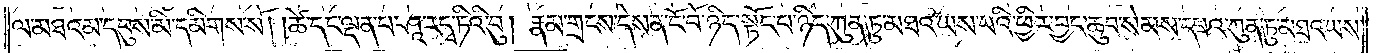ལ་མཐའམ་དབུས་མི་དམིགས་སོ། །ཚེ་དང་ལྡན་པ་ཤཱ་ར་དྭ་ཏིའི་བུ་རྣམ་གྲངས་དེས་ན་ངོ་བོ་ཉིད་སྟོང་པ་ཉིད་ཀུན་ཏུ་མཐའ་ཡས་པའི་ཕྱིར་བྱང་ཆུབ་སེམས་དཔའ་ཀུན་ཏུ་མཐའ་ཡས་
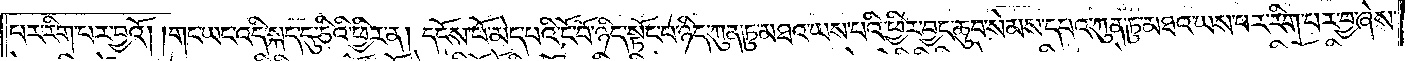པར་རིག་པར་བྱའོ། །གང་ཡང་འདི་སྐད་དུ་ཅིའི་ཕྱིར་ན། དངོས་པོ་མེད་པའི་ངོ་བོ་ཉིད་སྟོང་པ་ཉིད་ཀུན་ཏུ་མཐའ་ཡས་པའི་ཕྱིར་བྱང་ཆུབ་སེམས་དཔའ་ཀུན་ཏུ་མཐའ་ཡས་པར་རིག་པར་བྱ་ཞེས་
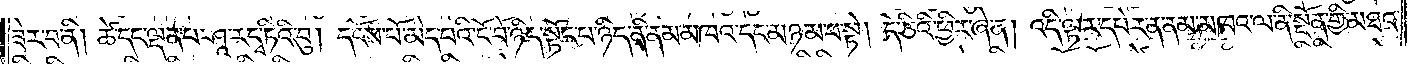ཟེར་བ་ནི། ཚེ་དང་ལྡན་པ་ཤཱ་ར་དྭ་ཏིའི་བུ། དངོས་པོ་མེད་པའི་ངོ་བོ་ཉིད་སྟོང་པ་ཉིད་ནི་ནམ་མཁའ་དང་མཉམ་པ་སྟེ། དེ་ཅིའི་ཕྱིར་ཞེ་ན། འདི་ལྟར་དཔེར་ན་ནམ་མཁའ་ལ་ནི་སྔོན་གྱི་མཐའ་
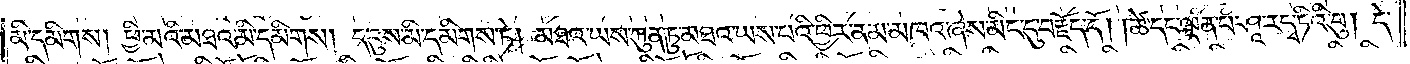མི་དམིགས། ཕྱི་མའི་མཐའ་མི་དམིགས། དབུས་མི་དམིགས་ཏེ། མཐའ་ཡས་ཀུན་ཏུ་མཐའ་ཡས་པའི་ཕྱིར་ནམ་མཁའ་ཞེས་མིང་དུ་བརྗོད་དོ། །ཚེ་དང་ལྡན་པ་ཤཱ་ར་དྭ་ཏིའི་བུ། དེ་
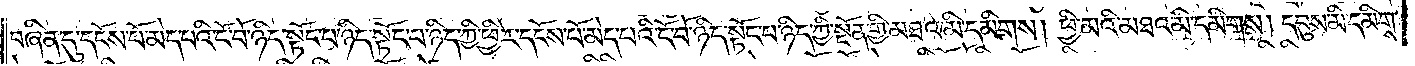བཞིན་དུ་དངོས་པོ་མེད་པའི་ངོ་བོ་ཉིད་སྟོང་པ་ཉིད་ཀྱི་ཕྱིར་དངོས་པོ་མད་པའི་ངོ་བོ་ཉིད་སྟོང་པ་ཉིད་ཀྱི་སྔོན་གྱི་མཐའ་མི་དམིགས། ཕྱི་མའི་མཐའ་མི་དམིགས། དབུས་མི་དམིགས་
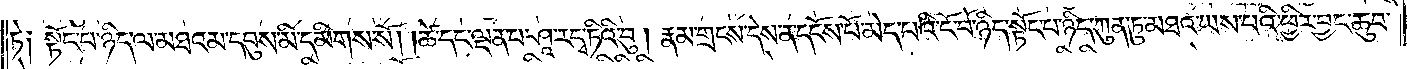ཏེ། སྟོང་པ་ཉིད་ལ་མཐའམ་དབུས་མི་དམིགས་སོ། །ཚེ་དང་ལྡན་པ་ཤཱ་ར་དྭ་ཏིའི་བུ། རྣམ་གྲངས་དེས་ན་དངོས་པོ་མེད་པའི་ངོ་བོ་ཉིད་སྟོང་པ་ཉིད་ཀུན་ཏུ་མཐའ་ཡས་པའི་ཕྱིར་བྱང་ཆུབ་
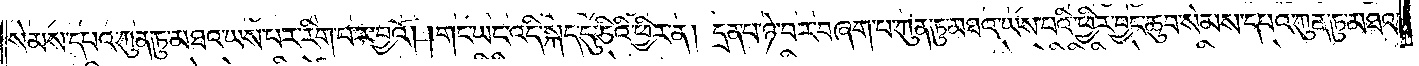སེམས་དཔའ་ཀུན་ཏུ་མཐའ་ཡས་པར་རིག་པར་བྱའོ། །གང་ཡང་འདི་སྐད་དུ་ཅིའི་ཕྱིར་ན། དྲན་པ་ཉེ་བར་བཞག་པ་ཀུན་ཏུ་མཐའ་ཡས་པའི་ཕྱིར་བྱང་ཆུབ་སེམས་དཔའ་ཀུན་ཏུ་མཐའ་
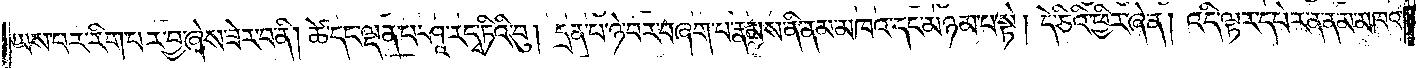ཡས་པར་རིག་པར་བྱ་ཞེས་ཟེར་བ་ནི། ཚེ་དང་ལྡན་པ་ཤཱ་ར་དྭ་ཏིའི་བུ། དྲན་པ་ཉེ་བར་བཞག་པ་རྣམས་ནི་ནམ་མཁའ་དང་མཉམ་པ་སྟེ། དེ་ཅིའི་ཕྱིར་ཞེ་ན། འདི་ལྟར་དཔེར་ན་ནམ་མཁའ་
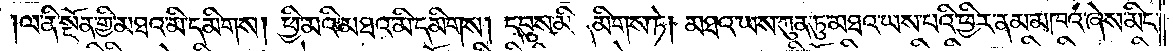ལ་ནི་སྔོན་གྱི་མཐའ་མི་དམིགས། ཕྱི་མའི་མཐའ་མི་དམིགས། དབུས་མི་དམིགས་ཏེ། མཐའ་ཡས་ཀུན་ཏུ་མཐའ་ཡས་པའི་ཕྱིར་ནམ་མཁའ་ཞེས་མིང་
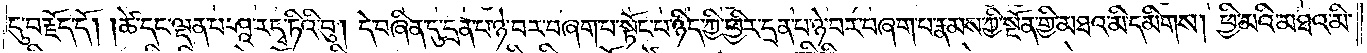དུ་བརྗོད་དོ། །ཚེ་དང་ལྡན་པ་ཤཱ་ར་དྭ་ཏིའི་བུ། དེ་བཞིན་དུ་དྲན་པ་ཉེ་བར་བཞག་པ་སྟོང་པ་ཉིད་ཀྱི་ཕྱིར་དྲན་པ་ཉེ་བར་བཞག་པ་རྣམས་ཀྱི་སྔོན་གྱི་མཐའ་མི་དམིགས། ཕྱི་མའི་མཐའ་མི་
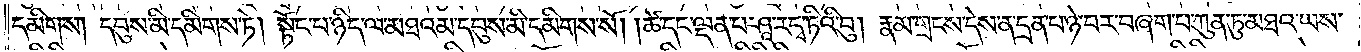དམིགས། དབུས་མི་དམིགས་ཏེ། སྟོང་པ་ཉིད་ལ་མཐའམ་དབུས་མི་དམིགས་སོ། །ཚེ་དང་ལྡན་པ་ཤཱ་ར་དྭ་ཏིའི་བུ། རྣམ་གྲངས་དེས་ན་དྲན་པ་ཉེ་བར་བཞག་པ་ཀུན་ཏུ་མཐའ་ཡས་
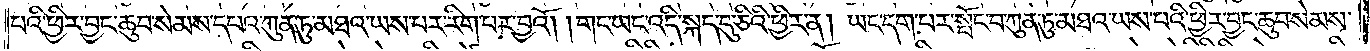པའི་ཕྱིར་བྱང་ཆུབ་སེམས་དཔའ་ཀུན་ཏུ་མཐའ་ཡས་པར་རིག་པར་བྱའོ༎ གང་ཡང་འདི་སྐད་དུ་ཅིའི་ཕྱིར་ན། ཡང་དག་པར་སྤོང་བ་ཀུན་ཏུ་མཐའ་ཡས་པའི་ཕྱིར་བྱང་ཆུབ་སེམས་
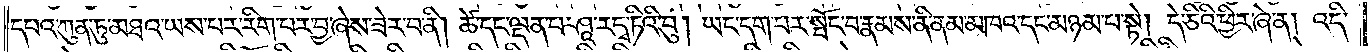དཔའ་ཀུན་ཏུ་མཐའ་ཡས་པར་རིག་པར་བྱ་ཞེས་ཟེར་བ་ནི། ཚེ་དང་ལྡན་པ་ཤཱ་ར་དྭ་ཏིའི་བུ། ཡང་དག་པར་སྤོང་བ་རྣམས་ནི་ནམ་མཁའ་དང་མཉམ་པ་སྟེ། དེ་ཅིའི་ཕྱིར་ཞེ་ན། འདི་
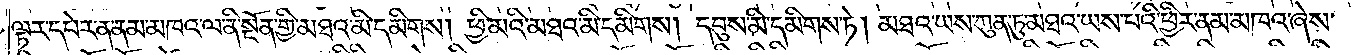ལྟར་དཔེར་ན་ནམ་མཁའ་ལ་ནི་སྔོན་གྱི་མཐའ་མི་དམིགས། ཕྱི་མའི་མཐའ་མི་དམིགས། དབུས་མི་དམིགས་ཏེ། མཐའ་ཡས་ཀུན་ཏུ་མཐའ་ཡས་པའི་ཕྱིར་ནམ་མཁའ་ཞེས་
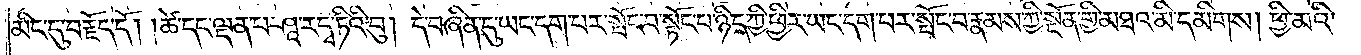མིང་དུ་བརྗོད་དོ། །ཚེ་དང་ལྡན་པ་ཤཱ་ར་དྭ་ཏིའི་བུ། དེ་བཞིན་དུ་ཡང་དག་པར་སྤོང་བ་སྟོང་པ་ཉིད་ཀྱི་ཕྱིར་ཡང་དག་པར་སྤོང་བ་རྣམས་ཀྱི་སྔོན་གྱི་མཐའ་མི་དམིགས། ཕྱི་མའི་
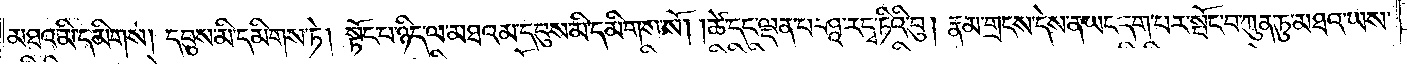མཐའ་མི་དམིགས། དབུས་མི་དམིགས་ཏེ། སྟོང་པ་ཉིད་ལ་མཐའམ་དབུས་མ་དམིགས་སོ། །ཚེ་དང་ལྡན་པ་ཤཱ་ར་དྭ་ཏིའི་བུ། རྣམ་གྲངས་དེས་ན་ཡང་དག་པར་སྤོང་བ་ཀུན་ཏུ་མཐའ་ཡས་
